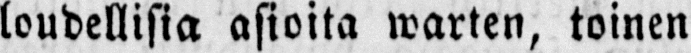loudellisia asioita warten, toinen
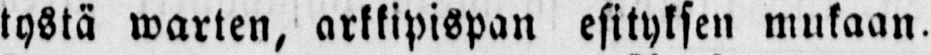tystä warten, arkkipispan esityksen mukaan.
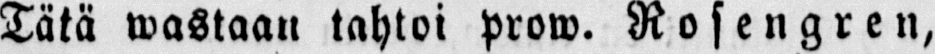Tätä wastaan tahtoi prorv. Rosengren,
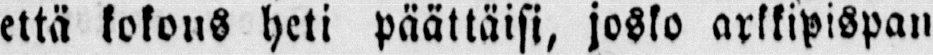että kokous heti päättäisi, josko arkkipispan
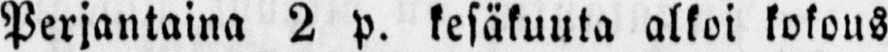Perjantaina 2 p. kesäkuuta alkoi kokous
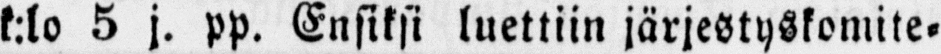k:lo 5 j. pp. Ensiksi luettiin järjestyskomite-
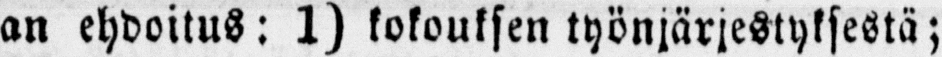an ehdoitus: 1) kokouksen työnjärjestyksestä;
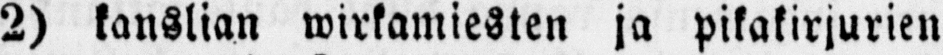2) kanslian wirkamiesten ja pikakirjurien
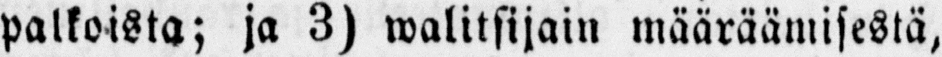palkoista; ja 3) walitsijain määräämisestä,
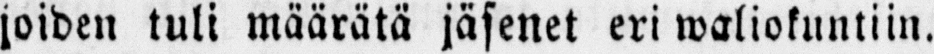joiden tuli määrätä jäsenet eri waliokuntiin.
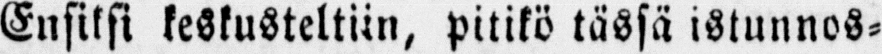Ensiksi keskusteltiin, pitikö tässä istunnos-
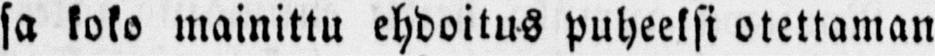sa koko mainittu ehdoitus puheeksi otettaman
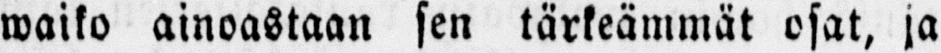waiko ainoastaan sen tärkeämmät osat, ja
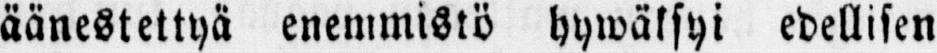äänestettyä enemmistö hywäksyi edellisen
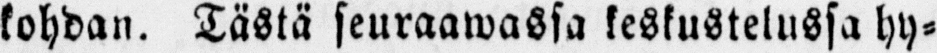kohdan. TsStä seuraawassa keskustelussa hy-
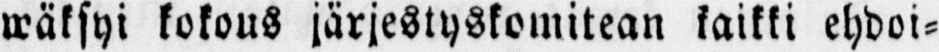wäksyi kokous järjestyskomitean kaikki ehdoi-
